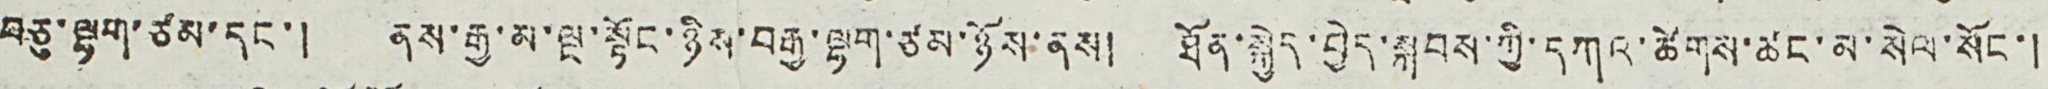བཅུ་ལྷག་ཙམ་དང་། ནས་རྒྱ་མ་ལྔ་སྟོང་ཉིས་བརྒྱ་ལྷག་ཙམ་ཉོས་ནས། ཐོན་སྐྱེད་བྱེད་སྐབས་ཀྱི་དཀའ་ཚེགས་ཚང་མ་སེལ་སོང་།
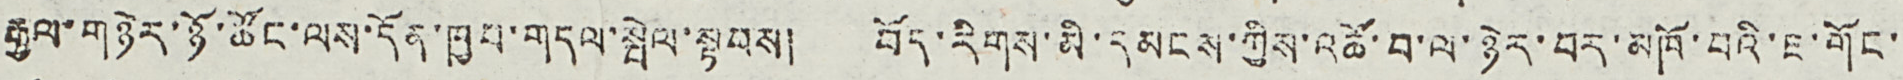རྒྱལ་གཉེར་ཉོ་ཚོང་ལས་དོན་ཁྱབ་གདལ་སྤེལ་སྟབས། བོད་རིགས་མི་དམངས་ཀྱིས་འཚོ་བ་ལ་ཉེར་བར་མཁོ་བའི་ཇ་གོང་
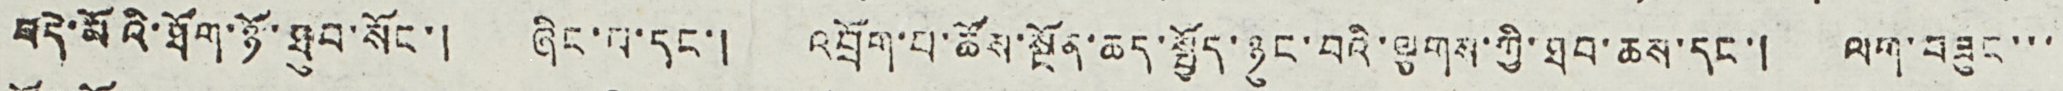བདེ་མོའི་ཐོག་ཉོ་ཐུབ་སོང་། ཞིང་པ་དང་། འབྲོག་པ་ཚོས་སྔོན་ཆད་སྤྱོད་ཉུང་བའི་ལྕགས་ཀྱི་ཐབ་ཆས་དང་། ལག་བཟུང་་་
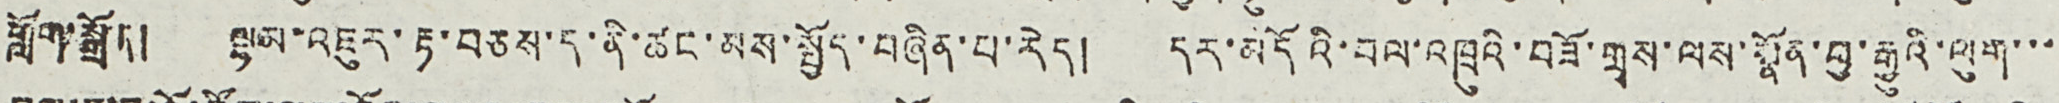གློག་སྒྲོན། ལྷམ་འཇུར་རྟ་བཅས་ད་ནི་ཚང་མས་སྤྱོད་བཞིན་པ་རེད། དར་མདོའི་བལ་འཁྲུའི་བཟོ་གྲྭས་ལས་སྣོན་བྱ་རྒྱུའི་ལུག་་་
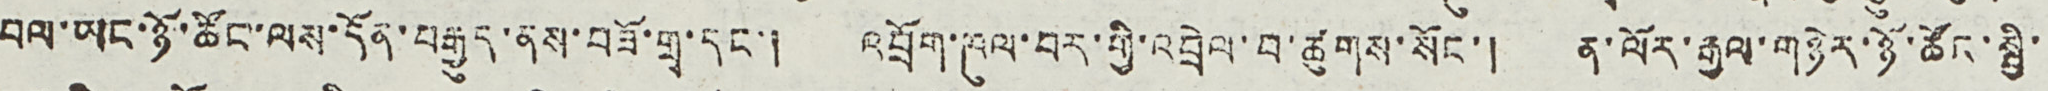བལ་ཡང་ཉོ་ཚོང་ལས་དོན་བརྒྱུད་ནས་བཟོ་གྲྭ་དང་། འབྲོག་ཁུལ་བར་གྱི་འབྲེལ་བ་ཚུགས་སོང་། ན་ལོར་རྒྱལ་གཉེར་ཉོ་ཚོང་སྤྱི་
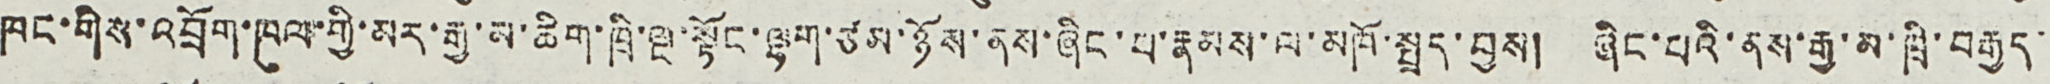ཁང་གིས་འབྲོག་ཁུལ་གྱི་མར་རྒྱ་མ་ཆིག་ཁྲི་ལྔ་སྟོང་ལྷག་ཙམ་ཉོས་ནས་ཞིང་པ་རྣམས་མཁོ་སྤྲད་བྱས། ཞིང་པའི་ནས་རྒྱ་མ་ཁྲི་བརྒྱད་
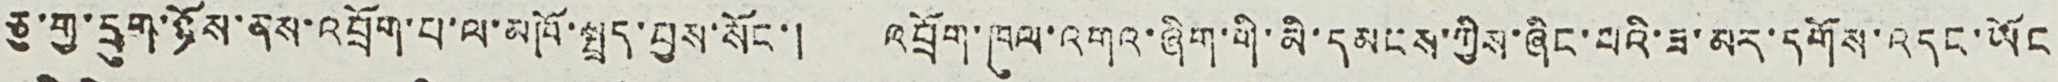ཅུ་གྱ་དྲུག་ཉོས་ནས་འབྲོག་པ་ལ་མཁོ་སྤྲད་བྱས་སོང་། འབྲོག་ཁུལ་འགའ་ཞིག་གི་མི་དམངས་ཀྱིས་ཞིང་པའི་ཟ་མར་དགོས་འདང་ཡོང
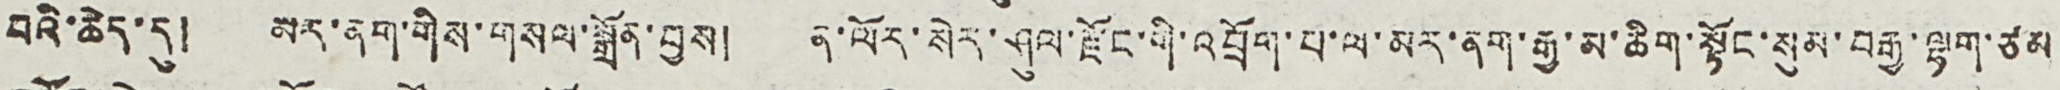བའི་ཆེད་དུ། མར་ནག་གིས་གསལ་སྒྲོན་བྱས། ན་ལོར་སེར་ཤུལ་རྫོང་གི་འབྲོག་པ་ལ་མར་ནག་རྒྱ་མ་ཆིག་སྟོང་སུམ་བརྒྱ་ལྷག་ཙམ
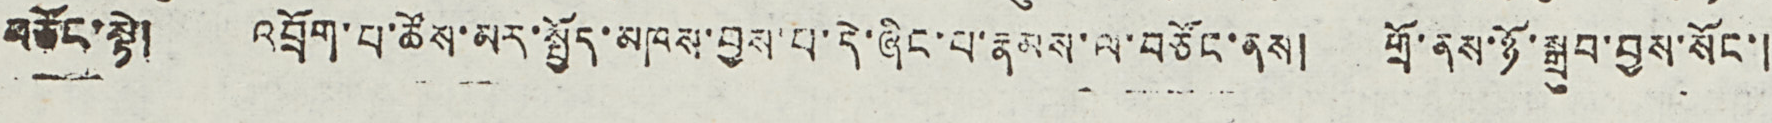བཙོང་སྟེ། འབྲོག་པ་ཚོས་མར་སྤྱོད་མཁས་བྱས་པ་དེ་ཞིང་པ་རྣམས་ལ་བཙོང་ནས། གྲོ་ནས་ཉོ་སྒྲུབ་བྱས་སོང་།
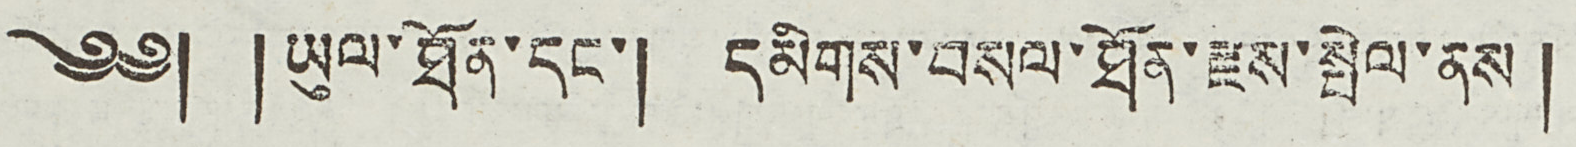༄༅། །ཡུལ་ཐོན་དང་། དམིགས་བསལ་ཐོན་རྫས་སྤེལ་ནས།
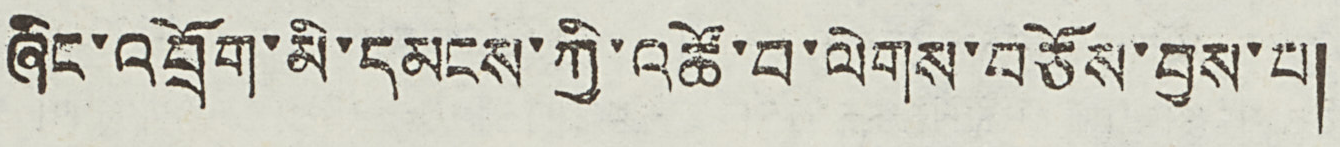ཞིང་འབྲོག་མི་དམངས་ཀྱི་འཚོ་བ་ལེགས་བཅོས་བྱས་པ།
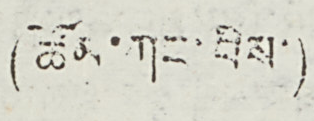(ཚོམ་ཀང་བིས་)
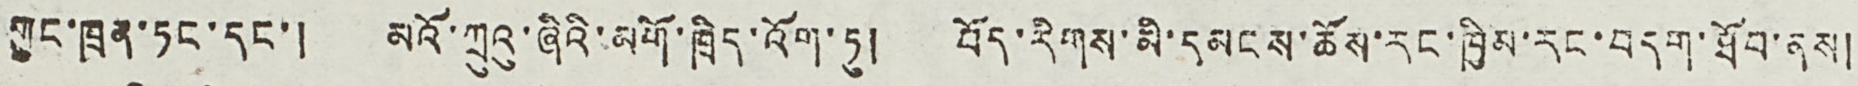གུང་ཁྲན་ཏང་དང་། མའོ་ཀྲུའུ་ཞིའི་མགོ་ཁྲིད་འོག་ཏུ། བོད་རིགས་མི་དམངས་ཆོས་རང་ཁྱིམ་རང་བདག་ཐོབ་ནས།
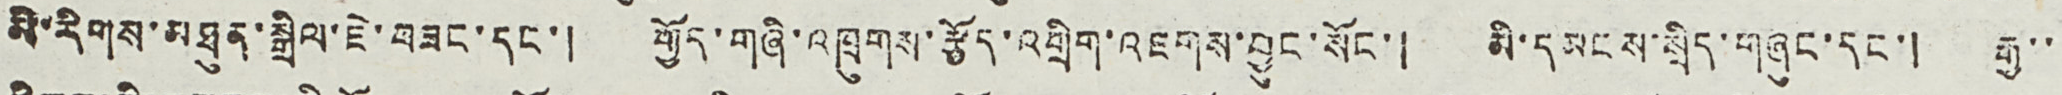མི་རིགས་མཐུན་སྒྲིལ་ཇེ་བཟང་དང་། གྱོད་གཞི་འཁྲུགས་རྩོད་འགྲིག་འཇགས་བྱུང་སོང་། མི་དམངས་སྲིད་གཞུང་དང་། རྒྱ་་
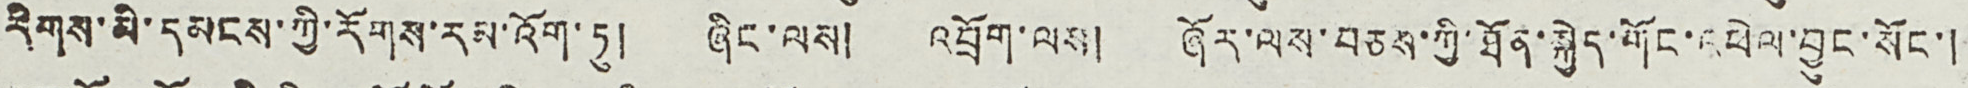རིགས་མི་དམངས་ཀྱི་རོགས་རམ་འོག་ཏུ། ཞིང་ལས། འབྲོག་ལས། ཞོར་ལས་བཅས་ཀྱི་ཐོན་སྐྱེད་གོང་འཕེལ་བྱུང་སོང་།
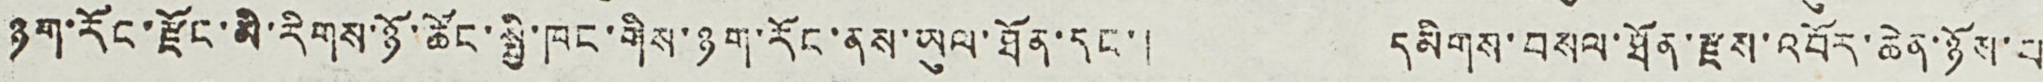ཉག་རོང་རྫོང་མི་རིགས་ཉོ་ཚོང་སྤྱི་ཁང་གིས་ཉག་རོང་ནས་ཡུལ་ཐོན་དང་། དམིགས་བསལ་ཐོན་རྫས་འབོར་ཆེན་ཉོས་པ
